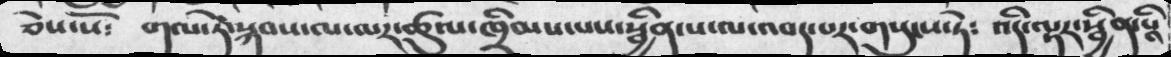ཅེས་སོ༴  གལ་ཏེ་སྐབས་ལ་མར་ཚུལ་ཁྲིམ་པས་སྦྱིན་པ་ལ་འབད་པར་གསུངས་ཏེ༴  འདི་ལྟར་སྦྱིན་པའི
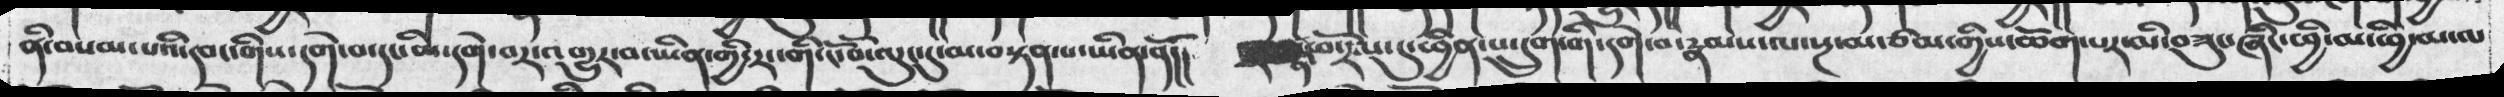ནི་བསམ་པའི་དབང་གིས་དགེ་བ་དང་མི་དགེ་བར་འགྱུར་བ་ཡིན་གྱི་རང་གི་ངོ་བོ་ལུང་དུ་མ་བསྟན་པ་ཡིན་ནོ།།  ཕ་རོལ་དུ་ཕྱི་པ་དྲུག་གི་དགེ་བ་རྣམ་ལ་སྔ་མ་ཙམ་གྱིས་ཆོག་པར་མི་བཟུང་ཞིང་ཕྱི་མ་ཕྱི་མ་ལ
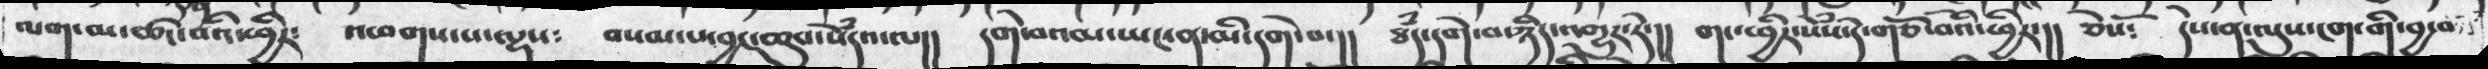ལག་མ་ཚང་བའི་ཕྱིར་  འཕགས་པ་ལྷས༴  བསམ་པ་བྱང་ཆུབ་སེཾདའ་ལ།།  དགེ་བའམ་ཡང་ན་མི་དགེ་བ་།།  ཐཾད་དགེ་བ་ཉིད་འགྱུར་རོ་།།  གང་ཕྱིར་སེཾས་དེ་གཅོ་བའི་ཕྱིར་།།  ཅེསོ༴  དེས་ན་ལུས་ངག་གི་བྱ་བ་
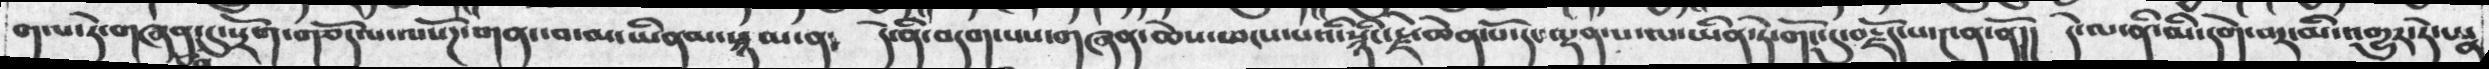གལ་ཏེ་གཞན་དུ་སྲོག་གཅོད་པ་ལསོཌ་གནང་བ་མ་ཡིན་མ་སྙམ་ན༴   དེ་ནི་བདག་པས་གཞན་ཆེས་ཕངས་པའི་སྙིང་རྗེ་ཆེན་པོ་དང་ལྡན་པ་ལ་ཡིན་ཏེ་གོང་དུ་བརྗོད་པ་༤ན་ནོ།།  དེ་ལ་ནི་མི་དགེ་བར་མི་འགྱུར་རོ་པརྣ
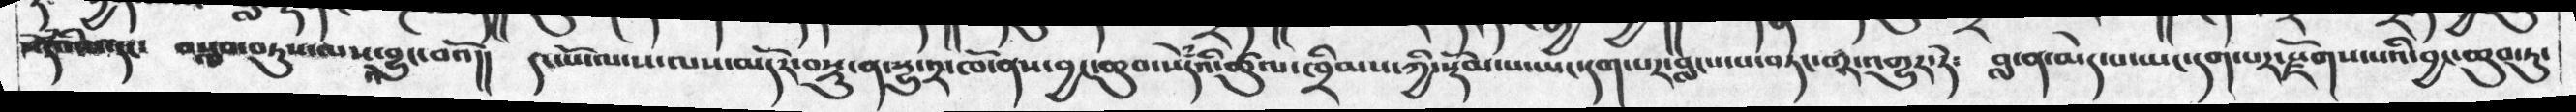འདའོ་པ་དང་  བསླབ་བཏུས་ལས་བྱུང་བའོ།།  དང་པོ་ལ་ས་ལས་མདོར་བསྡུ་ན་སྡུ་ན་སྡུ་༢་ཁོ་ནས་བྱང་ཆུབ་སེཾདའི་ཚུལ་ཁྲིམས་ཀྱི་སྡོམ་པ་ཡང་དག་པར་བླངས་པ་བཏང་བར་འགྱུར་ཏེ་  བླ་ན་མེད་པ་ཡང་དག་པར་རྫོགས་པའི་བྱང་ཆུབ་ཏུ་
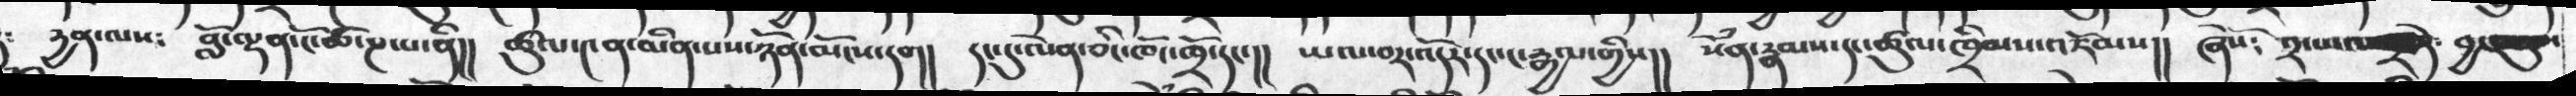རྱན་ལས༴   བློ་ལྡན་ང་ཚོ་ཎ་པ་ནི།།  ཚུལ་༤ན་མིན་པས་ཉོན་མོངས་རག།  རང་དུ་ལེན་ཅིང་ཁོང་ཁྲོ་དང་།།   ཡལ་བར་འདོར་དང་ང་རྒྱལ་གྱིས།།   སེཾན་རྣམས་དང་ཚུལ་ཁྲིམས་འཇོམས།།   ཞེསོ༴   ༢་པ་ལ་       བྱང་ཆུབ་
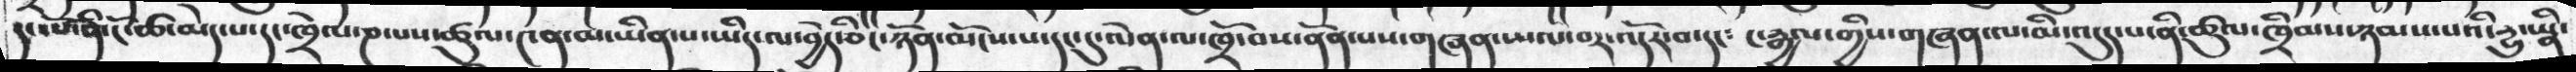དང་པོ་ནི་ངོ་ཚ་མེད་པ་དང་ཁྲེལ་ཎ་པས་ཚུལ་༤ན་མ་ཡིན་པ་ཡིད་ལ་བྱེད་ཅིང་ཉོན་མོངས་པ་དང་དུ་ལེན་ལ་ཁྲོ་བས་ནོན་པས་གཞན་ཡལ་བར་འདོར་བ་དང༴   ང་རྒྱལ་གྱིས་གཞན་ལ་མི་འདུད་པ་ནི་ཚུལ་ཁྲིམས་ཉམས་པའི་དྱུ་ཡིན་
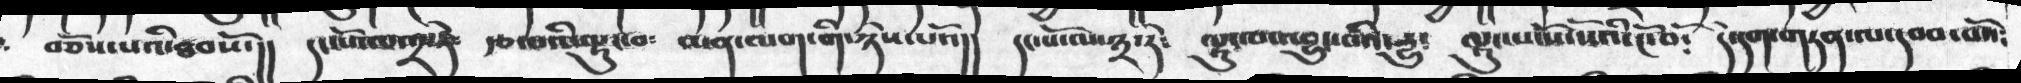བཅོས་པའི་ཐབསོ་།།  དང་པོ་ལ་༢་ཏེ༴  རྩ་བའི་ལྟུང་བ༴  ཡན་ལག་གི་ཉེས་པའོ།།   དང་པོ་ལ་༣་ཏེ༴  ལྟུང་བ་འབྱུང་བའི་དྱུ༴   ལྟུང་པ་སོ་སོའི་ངོ་བོ༴  དེ་དག་གཏན་ལ་དབབ་པའོ༴
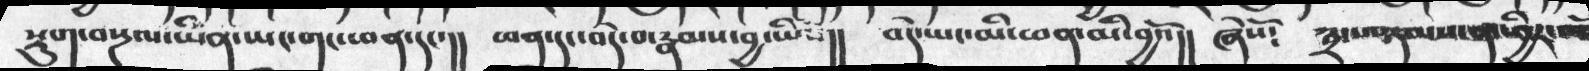སྡུག་བསྔལ་ཡིན་ཡང་གང་ཕན་དང་།།  ཕན་དང་བདེ་བ་རྣམས་བྱ་ཡིས།།   བདེ་ཡང་མི་ཕན་མི་བྱའོ།།  ཞེསོ༴  ༣་པ་ཉམས་ན་ཕྱིར་
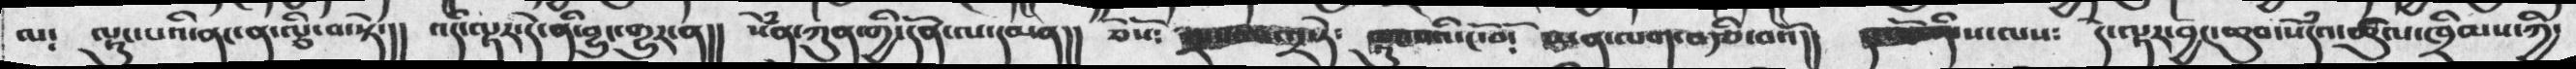ལ༴ ལྷུང་པའི་ནང་ན་ལྕི་བ་སྟེ་།།  འདི་ལྟར་དེ་ནི་བྱུང་གྱུར་ན།།  སེཾན་ཀུན་གྱི་དོན་ལ་དམན།།   ཅེསོ༴ སྒྲ་འཐབ་གྲ་ཏེ་  ལྷུང་བའི་ངོ་བོ༴   ཐ་ན་ལག་བརྩི་བའོ།།   དང་པོ་ནི་ས་ལས༴  དེ་ལྟར་བྱང་ཆུབ་སེཾདའ་ཚུལ་ཁྲིམས་ཀྱི་
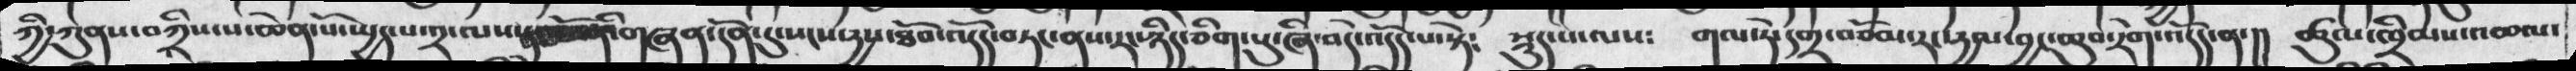ཀྱི་ཀུནས་བཀྲིས་ས་ཆེན་པོ་སྤྱད་པ་༢་ལས་     གཞན་དོན་དུ་སངས་རྱས་ཐོབ་འདོད་བཏང་ནས་རང་ཉིད་ཅིག་པུ་ཞི་བདེ་འདོད་པ་སྟེ༴   སྡུད་པ་ལས༴    གལ་ཏེ་དགྲ་བཅོམ་རང་དྱལ་བྱང་ཆུབ་རེག་འདོད་ན།།      ཚུལ་ཁྲིམས་འཆལ་
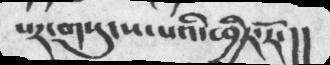པར་གསུངས་པའི་ཕྱིར་རོ་།།
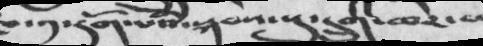༡་དོག་པའི་སྐབས་སུ་དྲུག་ཆར་ལ
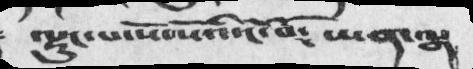ལྷུང་པ་སོ་སོའི་ངོ་བོ་  ཡན་ལག་
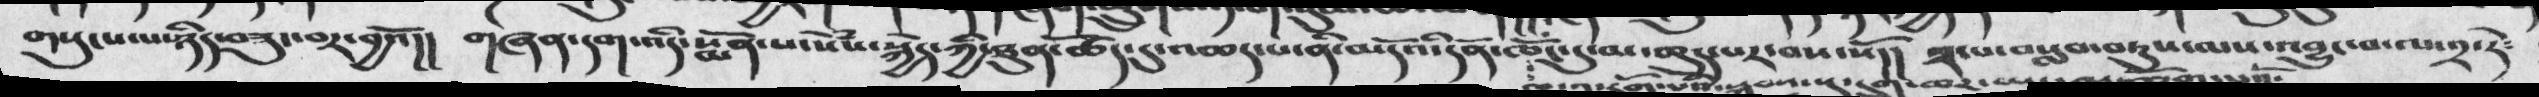གསུངས་པ་ཉིད་བཟུང་བར་བྱའོ།།   གཞན་དག་འདི་སྨོན་པ་སེཾས་སྐྱེད་ཀྱི་ཐུན་ཚོད་དུ་འཆད་པ་ནི་མདོའི་དོན་ཁོང་དུ་མ་ཆུད་པར་བས་སོ།།  ༢་པ་བསླབ་བཏུས་ལས་འབྱུང་བ་ལ་༢ཏེ༴
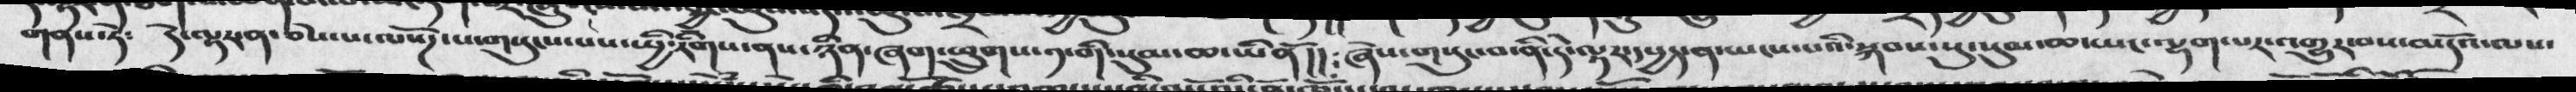གནས་ཏེ་   དེ་ལྟར་ན་ཅེས་པ་ལསོཌ་པ་གསུངས་པས་ཡྱི་རིགས་ནས་ཉིན་ཞག་ཕྲུགས་༡་གི་སུམ་ཆ་ཡིནོ།།  ཞེས་གསུང་བ་ནི་དེ་ལྟར་དཔྱད་ན་ཡངས་པའི་སྐབས་སུ་སུམ་ཆ་ཡང་ལྷག་པར་འགྱུར་བས་མདོའ་ལས་
